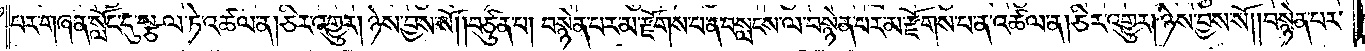པར་གཞན་སློང་དུ་སྩལ་ཏེ་འཚལ་ན། ཅིར་འགྱུར། ཉེས་བྱས་སོ། །བཙུན་པ། བསྙེན་པར་མ་རྫོགས་པ་ན་བསླངས་ལ་བསྙེན་པར་མ་རྫོགས་པ་ན་འཚལ་ན། ཅིར་འགྱུར། ཉེས་བྱས་སོ། །བསྙེན་པར་
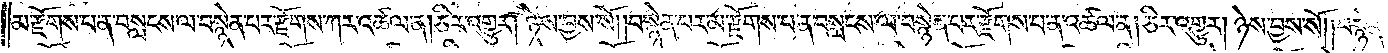མ་རྫོགས་པ་ན་བསླངས་ལ་བསྙེན་པར་རྫོགས་ཀར་འཚལ་ན། ཅིར་འགྱུར། ཉེས་བྱས་སོ། །བསྙེན་པར་མ་རྫོགས་པ་ན་བསླངས་ལ་བསྙེན་པར་རྫོགས་པ་ན་འཚལ་ན། ཅིར་འགྱུར། ཉེས་བྱས་སོ། །བསྙེན་
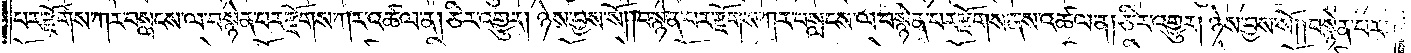པར་རྫོགས་ཀར་བསླངས་ལ་བསྙེན་པར་རྫོགས་ཀར་འཚལ་ན། ཅིར་འགྱུར། ཉེས་བྱས་སོ། །བསྙེན་པར་རྫོགས་ཀར་བསླངས་ལ་བསྙེན་པར་རྫོགས་ནས་འཚལ་ན། ཅིར་འགྱུར། ཉེས་བྱས་སོ། །བསྙེན་པར་
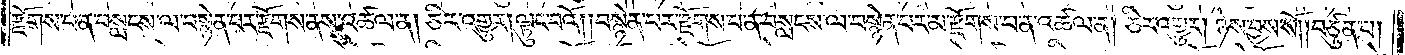རྫོགས་པ་ན་བསླངས་ལ་བསྙེན་པར་རྫོགས་ནས་འཚལ་ན། ཅིར་འགྱུར། ལྟུང་བའོ། །བསྙེན་པར་རྫོགས་པ་ན་བསླངས་ལ་བསྙེན་པར་མ་རྫོགས་པ་ན་འཚལ་ན། ཅིར་འགྱུར། ཉེས་བྱས་སོས། །བཙུན་པ།
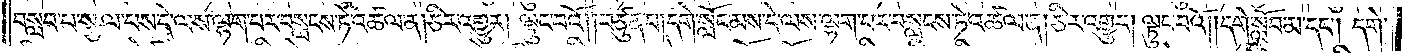བསླབ་པ་སྩལ་པས་དེ་ལས་ལྷག་པར་བསླངས་ཏེ་འཚལ་ན། ཅིར་འགྱུར། ལྟུང་བའོ། །བཙུན་པ། དགེ་སློང་མས་དེ་ལས་ལྷག་པར་བསླངས་ཏེ་འཚལ་ན། ཅིར་འགྱུར། ལྟུང་བའོ། །དགེ་སློབ་མ་དང༌། དགེ་
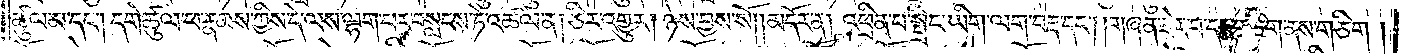ཚུལ་མ་དང༌། དགེ་ཚུལ་ཕ་རྣམས་ཀྱིས་དེ་ལས་ལྷག་པར་བསླངས་ཏེ་འཚལ་ན། ཅིར་འགྱུར། ཉེས་བྱས་སོ།    །མདོར་ན། འཕྲིན་པ་སྤྲིང་ཡིག་ལག་བརྡ་དང༌། །གཞན་ཟེར་བ་དང་གཅིག་ནས་གཅིག།
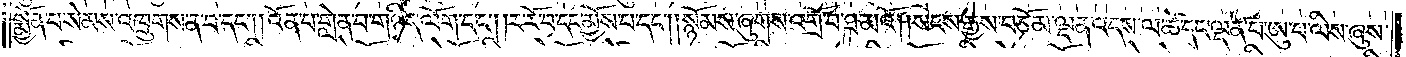སྨྱོན་པ་སེམས་འཁྲུགས་ན་བ་དང༌། །འོན་པ་གླེན་པ་གཉིད་ལོག་དང༌། །ར་རོ་བ་དང་མྱོས་པ་དང༌། །སྙོམས་ཞུགས་འགྲོ་བ་ཐ་མའོ། །སངས་རྒྱས་བཅོམ་ལྡན་འདས་ལ་ཚེ་དང་ལྡན་པ་ཨུ་པ་ལིས་ཞུས་
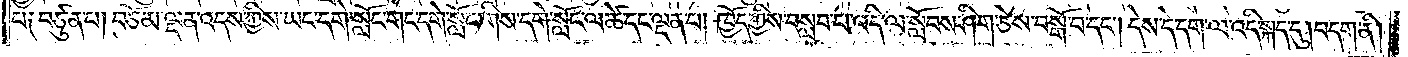པ། བཙུན་པ། བཅོམ་ལྡན་འདས་ཀྱིས་ཡང་དགེ་སློང་གང་དགེ་སློང་གིས་དགེ་སློང་ལ་ཚེ་དང་ལྡན་པ། ཁྱོད་ཀྱིས་བསླབ་པ་འདི་ལ་སློབས་ཤིག་ཅེས་བསྒོ་བ་དང༌། དེས་དེ་དག་ལ་འདི་སྐད་དུ། བདག་ནི།
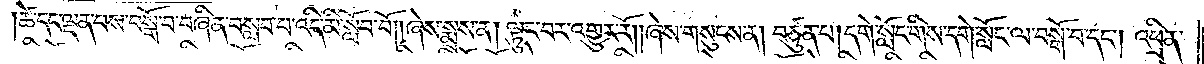ཚེ་དང་ལྡན་པས་བསྒོ་བ་བཞིན་དུ་བསླབ་པ་འདི་མི་སློབ་བོ། །ཞེས་སྨྲས་ན། ལྟུང་བར་འགྱུར་རོ། །ཞེས་གསུངས་ན། བཙུན་པ། དགེ་སློང་གིས་དགེ་སློང་ལ་བསྒོ་བ་དང༌། འཕྲིན་
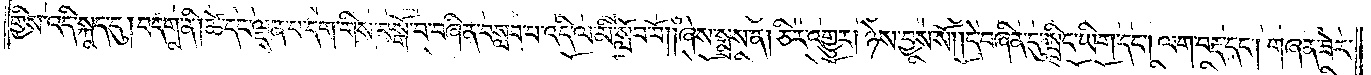གྱིས་འདི་སྐད་དུ། བདག་ནི། ཚེ་དང་ལྡན་པ་དག་གིས་བསྒོ་བ་བཞིན་དུ་བསླབ་པ་འདི་ལ་མི་སློབ་བོ། །ཞེས་སྨྲས་ན། ཅིར་འགྱུར། ཉེས་བྱས་སོ། །དེ་བཞིན་དུ་སྤྲིང་ཡིག་དང༌། ལག་བརྡ་དང༌། གཞན་ཟེར་
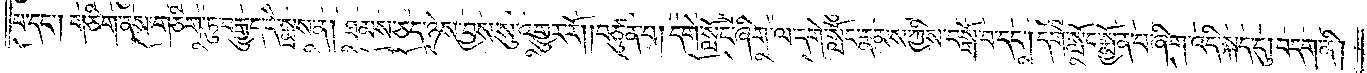བ་དང༌། གཅིག་ནས་གཅིག་ཏུ་བརྒྱུད་དེ་སྨྲས་ན། ཐམས་ཅད་ཉེས་བྱས་སུ་འགྱུར་རོ། །བཙུན་པ། དགེ་སློང་ཞིག་ལ་དགེ་སློང་རྣམས་ཀྱིས་བསྒོ་བ་དང༌། དགེ་སློང་སྨྱོན་པ་ཞིག་འདི་སྐད་དུ། བདག་ནི།
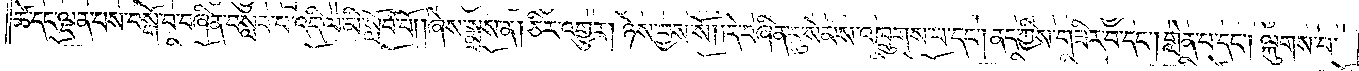ཚེ་དང་ལྡན་པས་བསྒོ་བ་བཞིན་བསླབ་པ་འདི་ལ་མི་སློབ་བོ། །ཞེས་སྨྲས་ན། ཅིར་འགྱུར། ཉེས་བྱས་སོ། །དེ་བཞིན་དུ་སེམས་འཁྲུགས་པ་དང༌། ནད་ཀྱིས་གཟིར་བ་དང༌། གླེན་པ་དང༌། ལྐུགས་པ་
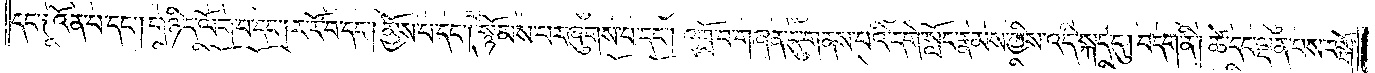དང༌། འོན་པ་དང༌། གཉིད་ལོག་པ་དང༌། ར་རོ་བ་དང༌། མྱོས་པ་དང༌། སྙོམས་པར་ཞུགས་པ་དང༌། འགྲོ་བ་གཞན་དུ་གནས་པའི་དགེ་སློང་རྣམས་ཀྱིས་འདི་སྐད་དུ། བདག་ནི། ཚེ་དང་ལྡན་པས་བསྒོ་
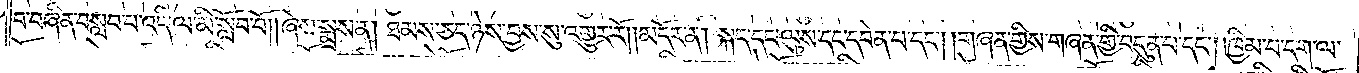བ་བཞིན་བསླབ་པ་འདི་ལ་མི་སློབ་བོ། །ཞེས་སྨྲས་ན། ཐམས་ཅད་ཉེས་བྱས་སུ་འགྱུར་རོ། །མདོར་ན། སྐད་དང་ལུས་དང་དབེན་པ་དང༌། །གཞན་གྱིས་གཞན་གྱི་བདུན་པ་དང༌། །ཁྱིམ་པ་དག་ལ་
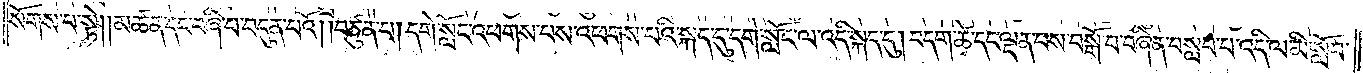སོགས་པ་སྟེ། །མཚན་དང་བཞི་པ་བདུན་པའོ། །བཙུན་པ། དགེ་སློང་འཕགས་པས་འཕགས་པའི་སྐད་དུ་དགེ་སློང་ལ་འདི་སྐད་དུ། བདག་ཚེ་དང་ལྡན་པས་བསྒོ་བ་བཞིན་བསླབ་པ་འདི་ལ་མི་སློབ་
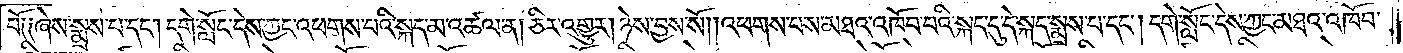པོ༑ ༑ཞེས་སྨྲས་པ་དང༌། དགེ་སློང་དེས་ཀྱང་འཕགས་པའི་སྐད་མ་འཚལ་ན། ཅིར་འགྱུར། ཉེས་བྱས་སོས། །འཕགས་པས་མཐའ་འཁོབ་པའི་སྐད་དུ་དེ་སྐད་སྨྲས་པ་དང༌། དགེ་སློང་དེས་ཀྱང་མཐའ་འཁོབ་
